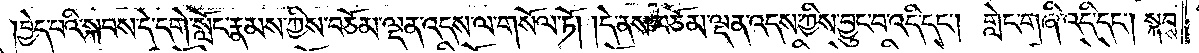བྱེད་པའི་སྐབས་དེ་དགེ་སློང་རྣམས་ཀྱིས་བཅོམ་ལྡན་འདས་ལ་གསོལ་ཏོ། །དེ་ནས་བཅོམ་ལྡན་འདས་ཀྱིས་བྱུང་བ་འདི་དང༌། གླེང་གཞི་འདི་དང༌། སྐབས་
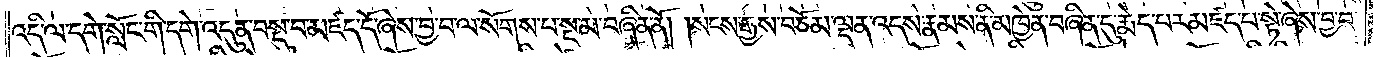འདི་ལ་དགེ་སློང་གི་དགེ་འདུན་བསྡུ་བ་མཛད་དོ་ཞེས་བྱ་བ་ལ་སོགས་པ་སྔ་མ་བཞིན་ནོ། །སངས་རྒྱས་བཅོམ་ལྡན་འདས་རྣམས་ནི་མཁྱེན་བཞིན་དུ་རྨེད་པར་མཛད་པ་སྟེ་ཞེས་བྱ་བ་
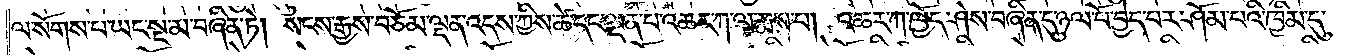ལ་སོགས་པ་ཡང་སྔ་མ་བཞིན་ཏེ། སངས་རྒྱས་བཅོམ་ལྡན་འདས་ཀྱིས་ཚེ་དང་ལྡན་པ་འཆར་ཀ་ལ་རྨས་པ། འཆར་ཀ་ཁྱོད་ཤེས་བཞིན་དུ་ཉལ་པོ་བྱེད་པར་ཤོམ་པའི་ཁྱིམ་དུ་
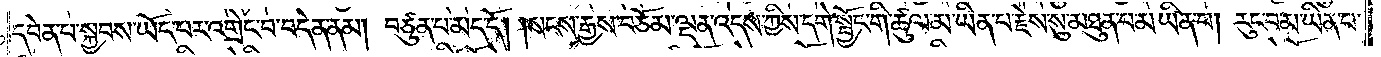དབེན་པ་སྐྱབས་ཡོད་པར་འགྲེང་བ་བདེན་ནམ། བཙུན་པ་མད་དོ། །སངས་རྒྱས་བཅོམ་ལྡན་འདས་ཀྱིས་དགེ་སྦྱོང་གི་ཚུལ་མ་ཡིན་པ་རྗེས་སུ་མཐུན་པ་མ་ཡིན་པ། རུང་བ་མ་ཡིན་པ་
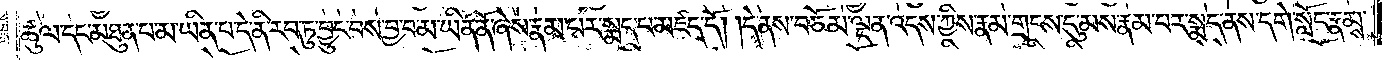ཚུལ་དང་མཐུན་པ་མ་ཡིན་པ་དེ་ནི་རབ་ཏུ་བྱུང་བས་བྱ་བ་མ་ཡིན་ནོ་ཞེས་རྣམ་པར་སྨད་པ་མཛད་དོ། །དེ་ནས་བཅོམ་ལྡན་འདས་ཀྱིས་རྣམ་གྲངས་དུ་མས་རྣམ་པར་སྨད་ནས་དགེ་སློང་རྣམས་
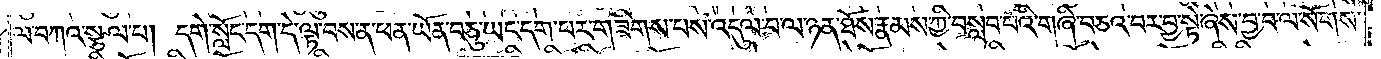ལ་བཀའ་སྩལ་པ། དགེ་སློང་དག་དེ་ལྟ་བས་ན་ཕན་ཡོན་བཅུ་ཡང་དག་པར་གཟིགས་པས་འདུལ་བ་ལ་ཉན་ཐོས་རྣམས་ཀྱི་བསླབ་པའི་གཞི་བཅའ་བར་བྱ་སྟེ་ཞེས་བྱ་བ་ལ་སོགས་
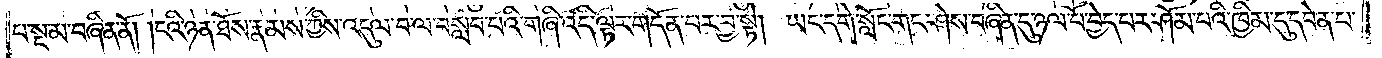པ་སྔ་མ་བཞིན་ནོ། །ངའི་ཉན་ཐོས་རྣམས་ཀྱིས་འདུལ་བ་ལ་བསླབ་པའི་གཞི་འདི་ལྟར་གདོན་པར་བྱ་སྟེ། ཡང་དགེ་སློང་གང་ཤེས་བཞིན་དུ་ཉལ་པོ་བྱེད་པར་ཤོམ་པའི་ཁྱིམ་དུ་དབེན་པ་
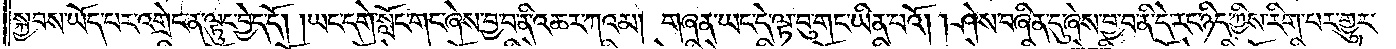སྐྱབས་ཡོད་པར་འགྲེང་ན་ལྟུང་བྱེད་དོ། །ཡང་དགེ་སློང་གང་ཞེས་བྱ་བ་ནི་འཆར་ཀའམ། གཞན་ཡང་དེ་ལྟ་བུ་གང་ཡིན་པའོ། །ཤེས་བཞིན་དུ་ཞེས་བྱ་བ་ནི་དེ་རང་ཉིད་ཀྱིས་རིག་པར་གྱུར་
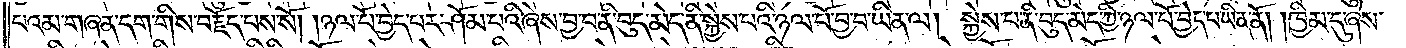པའམ་གཞན་དག་གིས་བརྗོད་པས་སོ། །ཉལ་པོ་བྱེད་པར་ཤོམ་པའི་ཞེས་བྱ་བ་ནི་བུད་མེད་ནི་སྐྱེས་པའི་ཉལ་པོ་བྱ་བ་ཡིན་ལ། སྐྱེས་པ་ནི་བུད་མེད་ཀྱི་ཉལ་པོ་བྱེད་པ་ཡིན་ནོ། །ཁྱིམ་དུ་ཞེས་
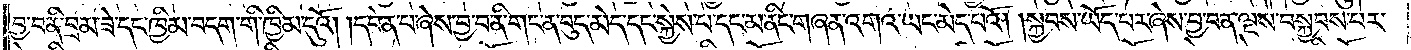བྱ་བ་ནི་བྲམ་ཟེ་དང་ཁྱིམ་བདག་གི་ཁྱིམ་དུའོ། །དབེན་པ་ཞེས་བྱ་བ་ནི་གང་ན་བུད་མེད་དང་སྐྱེས་པ་དང་མ་ནིང་གཞན་འགའ་ཡང་མེད་པའོ། །སྐྱབས་ཡོད་པར་ཞེས་བྱ་བ་ན་ལྔས་བསྐྱབས་པར་
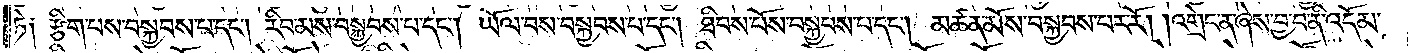ཏེ༑ རྩིག་པས་བསྐྱབས་པ་དང༌། རིབ་མས་བསྐྱབས་པ་དང༌། ཡོལ་བས་བསྐྱབས་པ་དང༌། ཐིབས་པོས་བསྐྱབས་པ་དང༌། མཚན་མོས་བསྐྱབས་པར་རོ། །འགྲེང་ན་ཞེས་བྱ་བ་ནི་འདོམ་
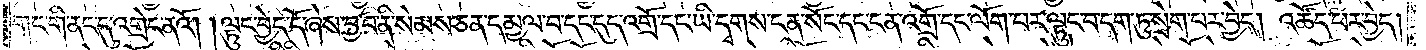གང་གི་ནང་དུ་འགྲེང་ནའོ། །ལྟུང་བྱེད་དོ་ཞེས་བྱ་བ་ནི་སེམས་ཅན་དམྱལ་བ་དང་དུད་འགྲོ་དང་ཡི་དྭགས་ངན་སོང་དང་ངན་འགྲོ་དང་ལོག་པར་ལྟུང་བ་དག་ཏུ་སྲེག་པར་བྱེད། འཚོད་པར་བྱེད།
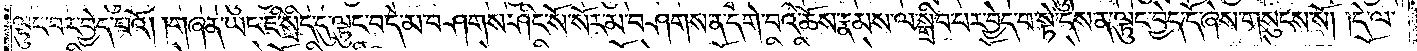ལྟུང་བར་བྱེད་པའོ། །གཞན་ཡང་ཇི་སྲིད་དུ་ལྟུང་བ་དེ་མ་བཤགས་ཤིང་སོ་སོར་མ་བཤགས་ན་དགེ་བའི་ཆོས་རྣམས་ལ་སྒྲིབ་པར་བྱེད་པ་སྟེ་དེས་ན་ལྟུང་བྱེད་དོ་ཞེས་གསུངས་སོ། །དེ་ལ་
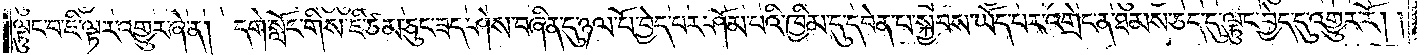ལྟུང་བ་ཇི་ལྟར་འགྱུར་ཞེ་ན། དགེ་སློང་གིས་ཇི་ཙམ་ཅུང་ཟད་ཤེས་བཞིན་དུ་ཉལ་བོ་བྱེད་པར་ཤོམ་པའི་ཁྱིམ་དུ་དབེན་པ་སྐྱབས་ཡོད་པར་འགྲེང་ན་ཐམས་ཅད་དུ་ལྟུང་བྱེད་དུ་འགྱུར་རོ། །
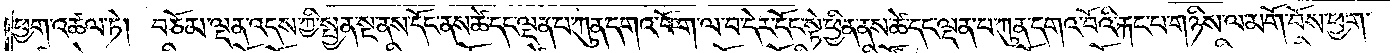ཕྱག་འཚལ་ཏེ། བཅོམ་ལྡན་འདས་ཀྱི་སྤྱན་སྔ་ནས་དོང་ནས་ཚེ་དང་ལྡན་པ་ཀུན་དགའ་བོ་ག་ལ་བ་དེར་དོང་སྟེ་ཕྱིན་ནས་ཚེ་དང་ལྡན་པ་ཀུན་དགའ་བོའི་རྐང་པ་གཉིས་ལ་མགོ་བོས་ཕྱག་
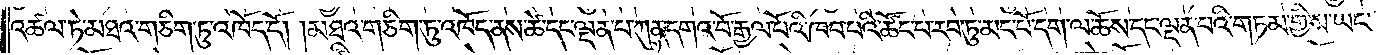འཚལ་ཏེ་མཐའ་གཅིག་ཏུ་འཁོད་དོ། །མཐའ་གཅིག་ཏུ་འཁོད་ནས་ཚེ་དང་ལྡན་པ་ཀུན་དགའ་བོ་རྒྱལ་པོའི་ཁབ་པའི་ཚོང་པ་རབ་ཏུ་མང་པོ་དག་ལ་ཆོས་དང་ལྡན་པའི་གཏམ་གྱིས་ཡང་
